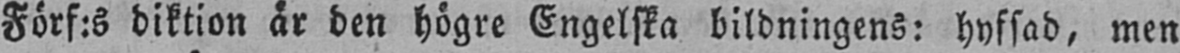Förf:s diktion är den högre Engelska bildningens: hyfsad, men
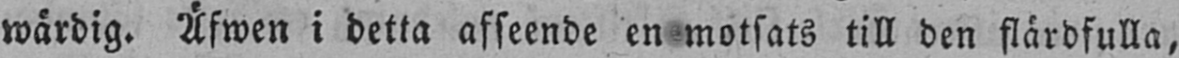wärdig. Äfwen i detta afseende en motsats till den flärdfulla,
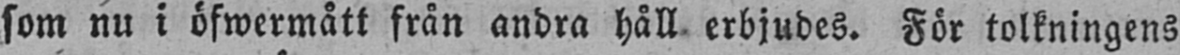som nu i öfwermätt från andra håll erbjudes. För tolkningens
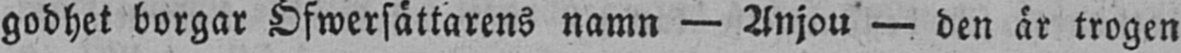godhet borgar Öfwersättarens namn — Anjou — den är trogen
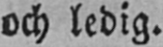och ledig.
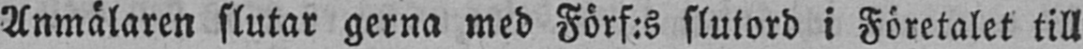Anmälaren slutar gerna med Förf:s slutord i Företalet till
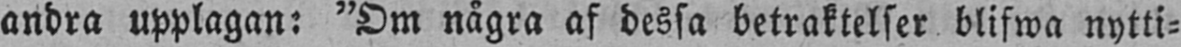andra upplagan: "Om några af dessa betraktelser blifwa nytti-
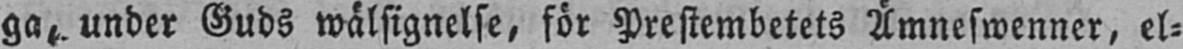ga, under Guds wälsignelse, för Prestembetets Ämneswenner, el-
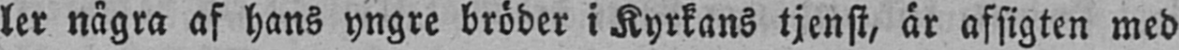ler några af hans yngre bröder i Kyrkans tjenst, är afsigten med
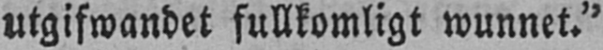utgifwandet fullkomligt wunnet."
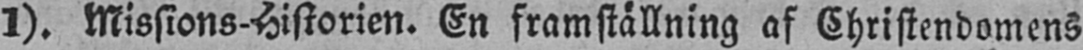1). Missions-Historien. En framställning af Christendomens
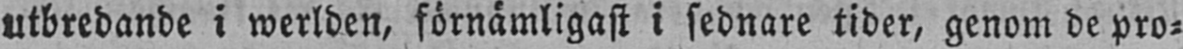utbredande i werlden, förnämligast i sednare tider, genom de pro-
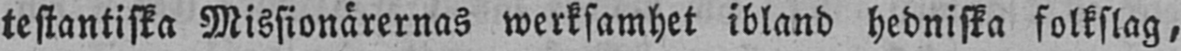testantiska Missionärernas werksamhet ibland hedniska folkslag,
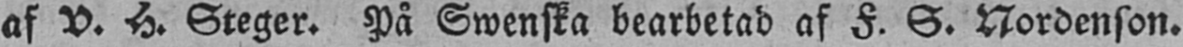af V. H. Steger. Pä Swenska bearbetad af F. S. Nordenson.
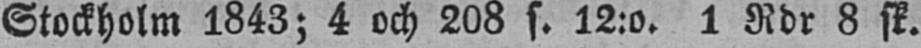Stockholm 1843; 4 och 208 s. 12:o. 1 Rdr 8 sk.
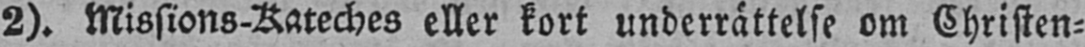2). Missions-Kateches eller kort underrättelse om Christen-
